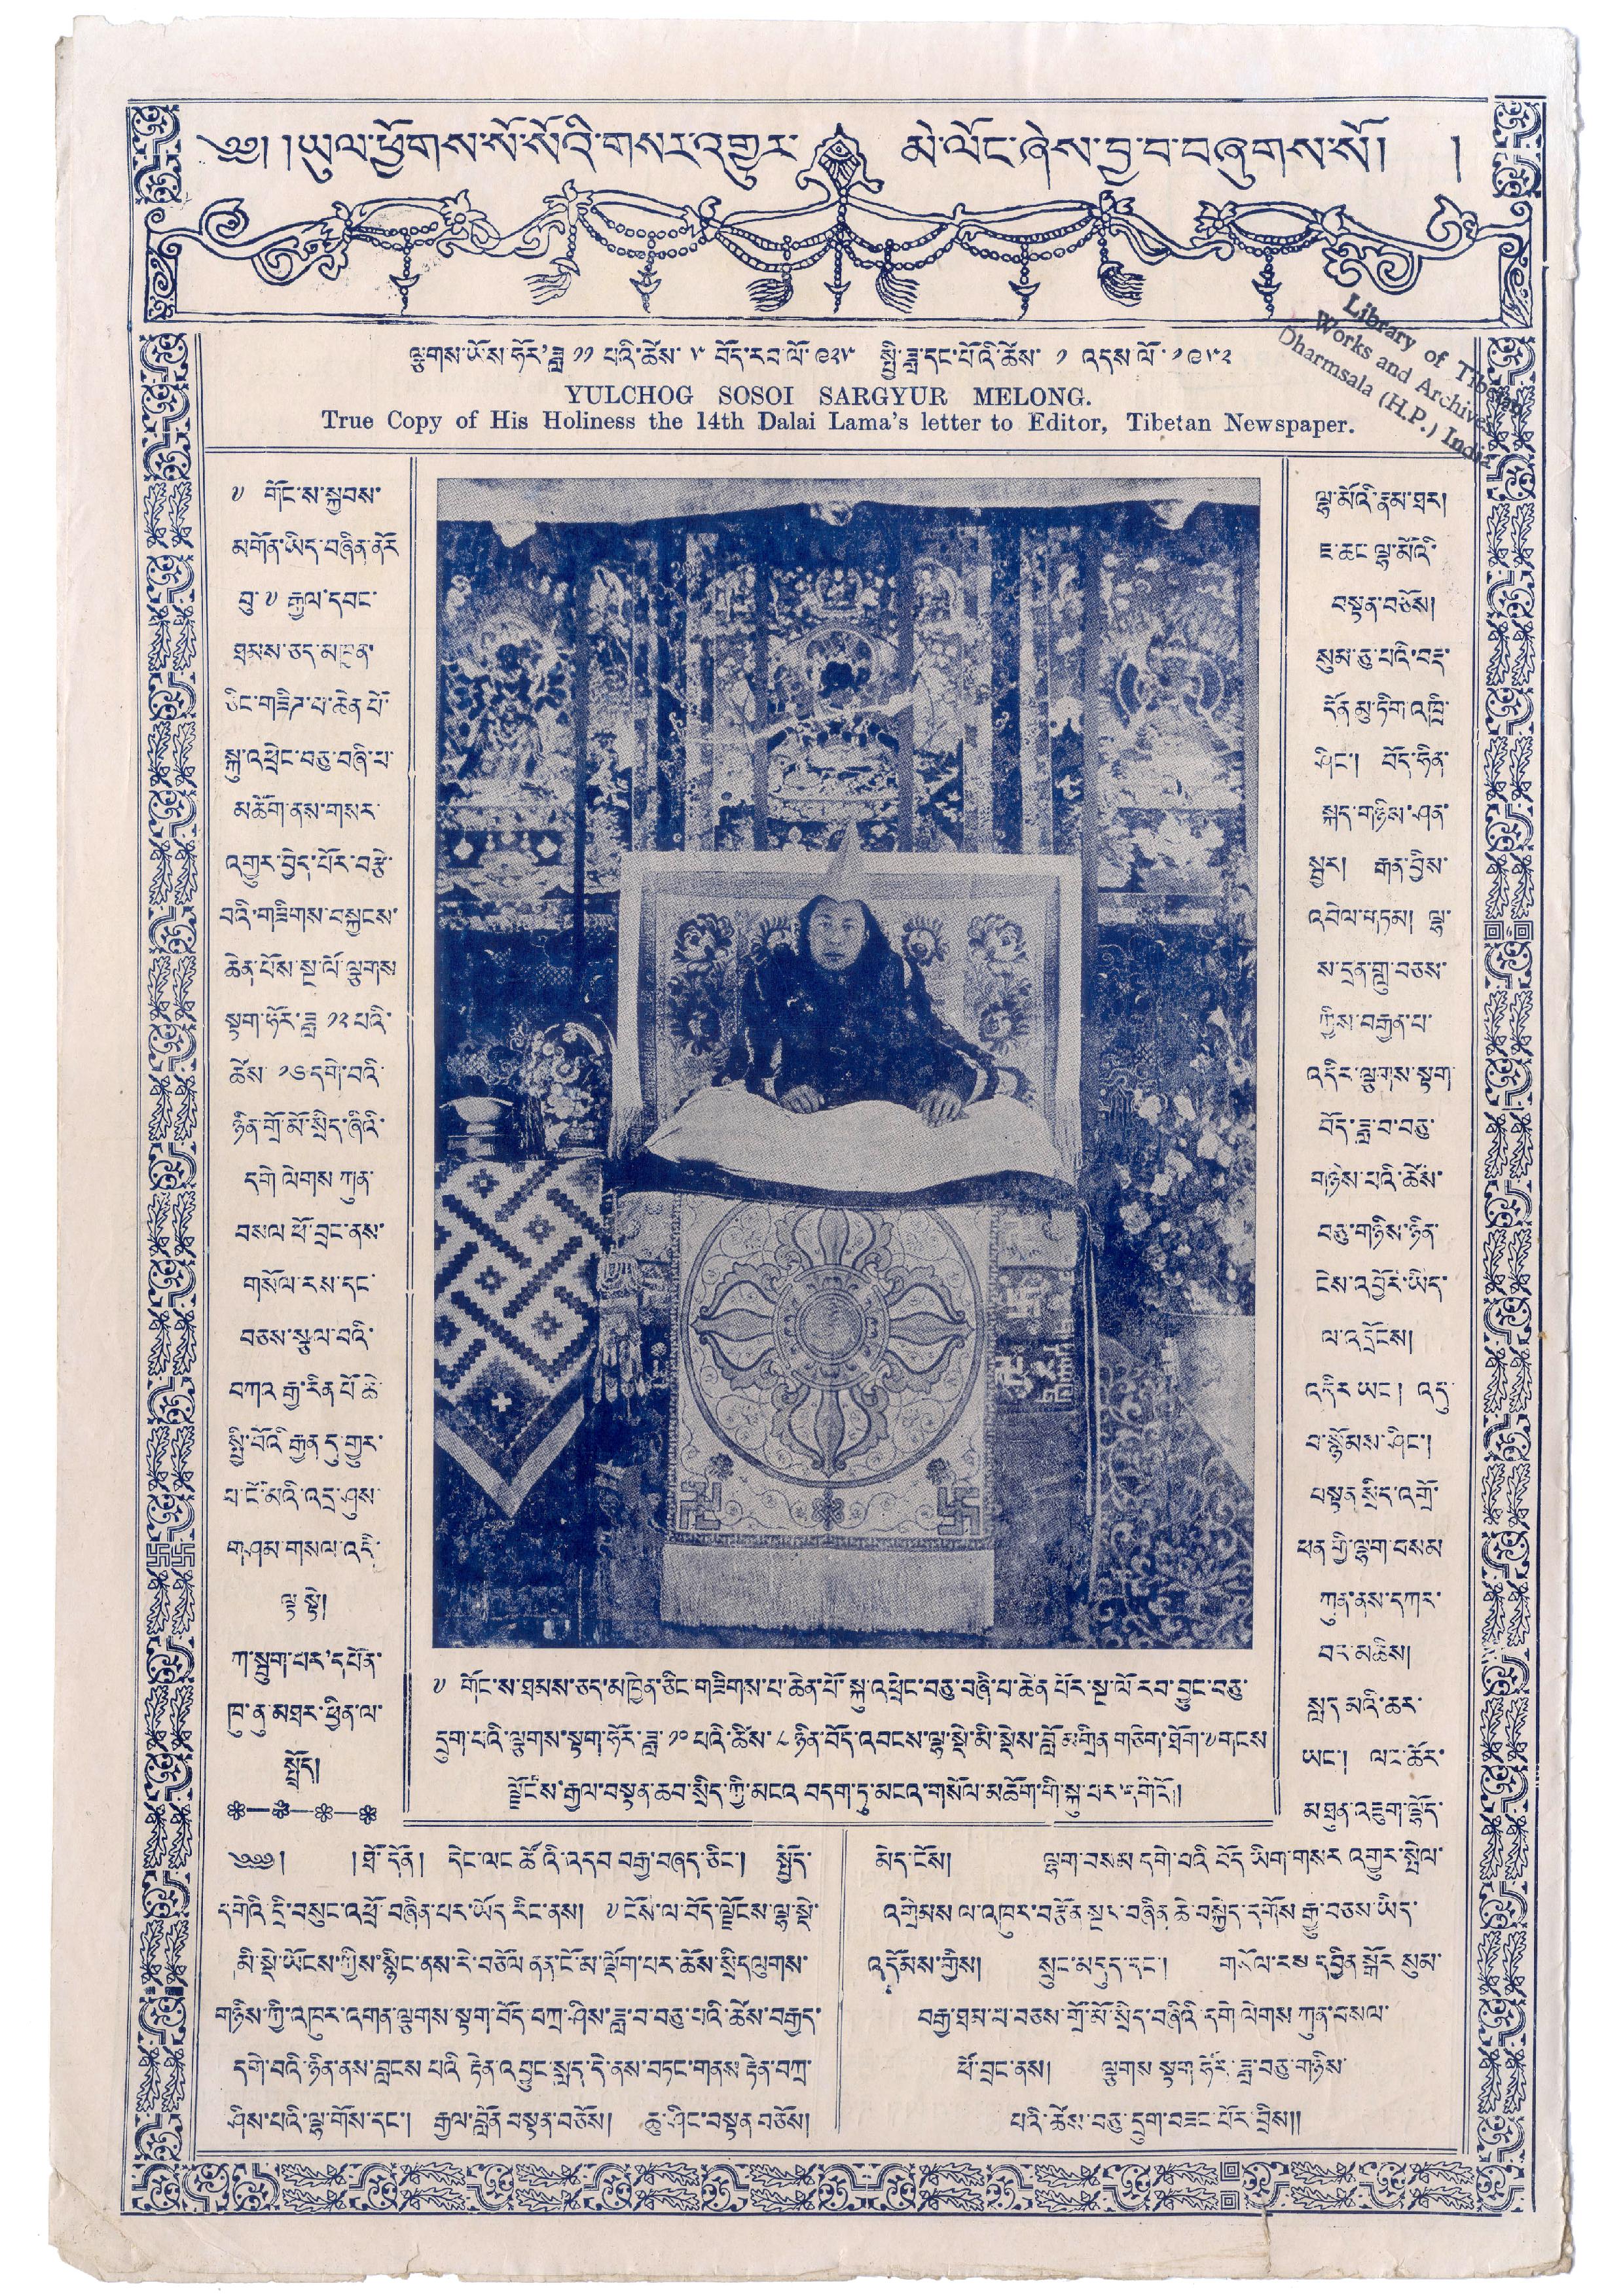༄༅། །ཡུལ་ཕྱོགས་སོ་སོའི་གསར་འགྱུར་ མེ་ལོང་ཞེས་བྱ་བ་བཞུགས་སོ། །
ལྕགས་ཡོས ཧོར་ཟླ་ ༡༡ པའི་ཚེས་ ༥ ་བོད་རབ་ལོ་ ༩༢༥ སྤྱི་ཟླ་དང་པོའི་ཚེས་ ༡ འདས་ལོ་ ༡༩༥༢
YULCHOG SOSOI SARGYUR MELONG
True Copy of His Holiness the 14th Dalai Lama's letter to Editor, Tibetan Newspaper.
༸ གོང་ས་སྐྱབས་
མགོན་ཡིད་བཞིན་ནོར་
བུ་ ༸ རྒྱལ་དབང་
ཐམས་ཅད་མཁྱན་
ཅིང་གཟིཊ་པ་ཆེན་པོ་
སྐུ་འཕྲེང་བཅུ་བཞི་པ་
མཆོག་ནས་གསར་
འགྱུར་བྱེད་པོར་བརྩེ་
པའི་གཟིགས་བསྐྱངས་
ཆེན་པོས་སྔ་ལོ་ལྕགས་
སྟག་ཧོར་ཟླ་ ༡༢ པའི་
ཚེས་ ༡༦ དགེ་བའི་
ཉིན་གྲོ་མོ་སྲིད་ཞིའི་
དགེ ལེགས ཀུན་
བསལ ཕོ་བྲང་ནས་
གསོལ་རས་དང་
བཅས་སྩལ་བའི་
བཀའ་རྒྱ་རིན་པོ ཆེ་
སྤྱི་བོའི རྒྱན དུ་གྱུར་
པ་ངོ་མའི་འདྲ་ཤུས་
གཤམ་གསལ་འདི་
ལྟ་སྟེ།
ཀ་སྦུག་པར་དཔོན་
ཁུ་ནུ་མཐར་ཕྱིན་ལ་
སྤྲོད།
༸ གོང་ས་ཐམས་ཅད་མཁྱེན་ཅིང་གཟིགས་པ་ཆེན་པོ་སྐུ་འཕྲེང་བཅུ་བཞི་པ་ཆེན་པོར་སྔ་ལོ་རབ་བྱུང་བཅུ་
དྲུག་པའི་ལྕགས་སྟག་ཧོར་ཟླ་ ༡༠ པའི་ཚེས་ ༨ ཉིན་བོད་འབངས་ལྷ་སྡེ་མི་སྡེས་བློ་མགྲིན་གཅིག་ཐོག་༸གངས་
ལྗོངས་རྒྱལ་བསྟན་ཆབ་སྲིད་ཀྱི་མངའ་བདག་ཏུ་མངའ་གསོལ་མཆོག་གི་སྐུ་པར་དགེའོ།།
༄༅༅། །ཐོ་དོན། དེང་ལང་ཚོའི་འདབ བརྒྱ་བཞད་ཅིང་། སྤྱོད་
དགེའི་དྲི་བསུང་འཕྲོ་བཞིན་པར་ཡོད རིང་ནས། ༸ངོས་ལ་བོད་ལྗོངས་ལྷ་སྡེ་
མི་སྡེ་ཡོངས་ཀྱིས་སྙིང་ནས་རེ་བཅོལ ནན་ངོ་མ་ལྡོག་པར་ཆོས་སྲིད་ལུགས་
གཉིས་ཀྱི་འཁུར་འགན་ལྕགས་སྟག་བོད་བཀྲ་ཤིས་ཟླ་བ་བཅུ་པའི་ཆོས་བརྒྱད་
དགེ་བའི་ཉིན་ནས་བླངས པའི རྟེན་འབྱུང་སླད་དེ་ནས་བཏང་གནས་རྟེན་བཀྲ་
ཤིས་པའི་ལྷ་གོས་དང་། རྒྱལ་བློན བསྟན་བཅོས། ཆུ་ཤིང་བསྟན བཅོས།
ལྷ་མོའི་རྣམ་ཐར།
ཇ་ཆང་ལྷ་མོའི་
བསྟན་བཅོས།
སུམ་ཅུ་པའི་བརྡ་
དོན མུ་ཏིག འཁྲི་
ཤིང་། བོད་ཧིན་
སྐད་གཉིས་ཤན་
སྦྱར། རྒན་བྱིས་
འབེལ་གཏམ། ལྷ་
ས་དྲན་གླུ་བཅས་
ཀྱིས་བརྒྱན་པ་
འདིར་ལྕགས་སྟག་
བོད་ཟླ་བ་བཅུ་
གཉིས་པའི་ཚེས་
བཅུ་གཉིས་ཉིན་
ངེས་འབྱོར་ཡིད་
ལ་འདྲོངས།
འདིར ཡང ། འདུ་
བ་སྙོམས་ཤིང་།
བསྟན་སྲིད་འགྲོ་
ཕན གྱི་ལྷག བསམ་
ཀུན་ནས་དཀར་
བར་མཆིས།
སླད་མའི་ཆར་
ཡང་། ལང་ཆོར་
མཐུན་འཇུག་ལྷོད་
མེད་ངོས། ལྷག་བསམ དགེ་བའི བོད ཡིག་གསར འགྱུར་སྤེལ་
འགྲེམས ལ་འཁུར་བརྩོན་སྔར་བཞིན་ཆེ་བསྐྱེད་དགོས རྒྱུ་བཅས་ཡིད་
འདོམས་གྱིས། སྲུང་མདུད་དང་། གསོལ་རས་དབྱིན་སྒོར སུམ་
བརྒྱ་ཐམ་པ་བཅས་གྲོ་མོ་སྲིད་བཞིའི་དགེ་ལེགས ཀུན་བསལ་
ཕོ་བྲང་ནས། ལྕགས སྟག ཧོར་ཟླ་བཅུ་གཉིས་
པའི་ཚེས་བཅུ་དྲུག་བཟང་པོར་བྲིས།།
